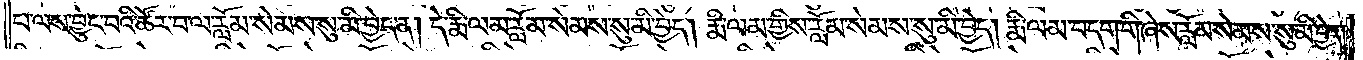པ་ལས་བྱུང་བའི་ཚོར་བ་ལ་རློམ་སེམས་སུ་མི་བྱེད་ན། དེ་རྨི་ལམ་རློམ་སེམས་སུ་མི་བྱེད། རྨི་ལམ་གྱིས་རློམ་སེམས་སུ་མི་བྱེད། རྨི་ལམ་བདག་གི་ཞེས་རློམ་སེམས་སུ་མི་བྱེད།
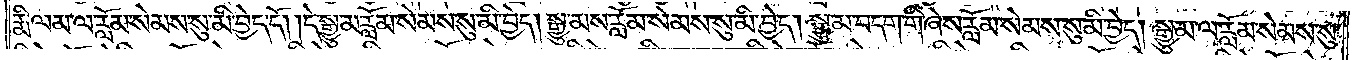རྨི་ལམ་ལ་རློམ་སེམས་སུ་མི་བྱེད་དོ། །དེ་སྒྱུ་མ་རློམ་སེམས་སུ་མི་བྱེད། སྒྱུ་མས་རློམ་སེམས་སུ་མི་བྱེད། སྒྱུ་མ་བདག་གི་ཞེས་རློམ་སེམས་སུ་མི་བྱེད། སྒྱུ་མ་ལ་རློམ་སེམས་སུ་
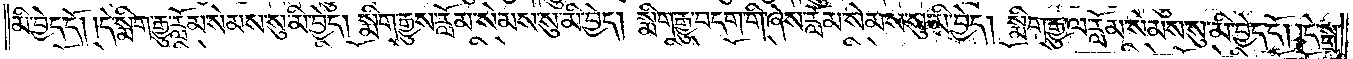མི་བྱེད་དོ། །དེ་སྨིག་རྒྱུ་རློམ་སེམས་སུ་མི་བྱེད། སྨིག་རྒྱུས་རློམ་སེམས་སུ་མི་བྱེད། སྨིག་རྒྱུ་བདག་གི་ཞེས་རློམ་སེམས་སུ་མི་བྱེད། སྨིག་རྒྱུ་ལ་རློམ་སེམས་སུ་མི་བྱེད་དོ། །དེ་སྒྲ་
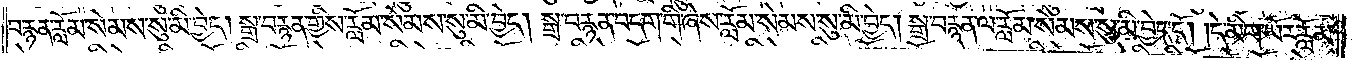བརྙན་རློམ་སེམས་སུ་མི་བྱེད། སྒྲ་བརྙན་གྱིས་རློམ་སེམས་སུ་མི་བྱེད། སྒྲ་བརྙན་བདག་གི་ཞེས་རློམ་སེམས་སུ་མི་བྱེད། སྒྲ་བརྙན་ལ་རློམ་སེམས་སུ་མི་བྱེད་དོ། །དེ་མིག་ཡོར་རློམ་
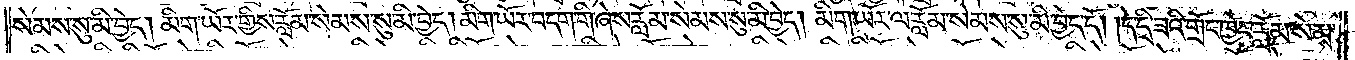སེམས་སུ་མི་བྱེད། མིག་ཡོར་གྱིས་རློམ་སེམས་སུ་མི་བྱེད། མིག་ཡོར་བདག་གི་ཞེས་རློམ་སེམས་སུ་མི་བྱེད། མིག་ཡོར་ལ་རློམ་སེམས་སུ་མི་བྱེད་དོ། །དེ་དྲི་ཟའི་གྲོང་ཁྱེར་རློམ་སེམས་
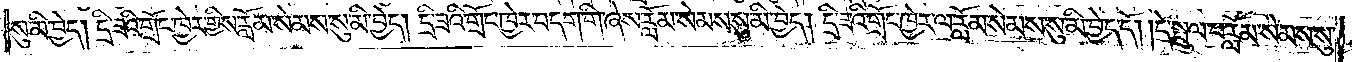སུ་མི་བྱེད། དྲི་ཟའི་གྲོང་ཁྱེར་གྱིས་རློམ་སེམས་སུ་མི་བྱེད། དྲི་ཟའི་གྲོང་ཁྱེར་བདག་གི་ཞེས་རློམ་སེམས་སུ་མི་བྱེད། དྲི་ཟའི་གྲོང་ཁྱེར་ལ་རློམ་སེམས་སུ་མི་བྱེད་དོ། །དེ་སྤྲུལ་པ་རློམ་སེམས་སུ་
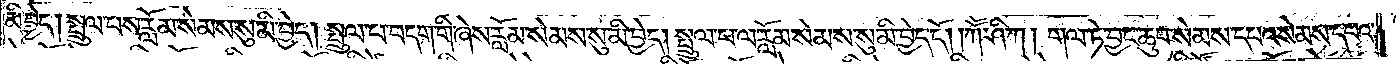མི་བྱེད། སྤྲུལ་པས་རློམ་སེམས་སུ་མི་བྱེད། སྤྲུལ་པ་བདག་གི་ཞེས་རློམ་སེམས་སུ་མི་བྱེད། སྤྲུལ་པ་ལ་རློམ་སེམས་སུ་མི་བྱེད་དོ། །ཀཽ་ཤི་ཀ། གལ་ཏེ་བྱང་ཆུབ་སེམས་དཔའ་སེམས་དཔའ་
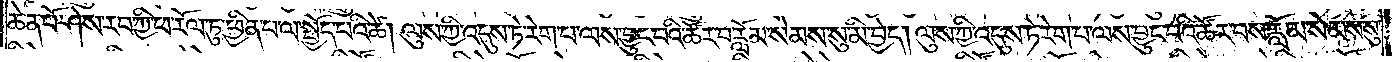ཆེན་པོ་ཤེས་རབ་ཀྱི་ཕ་རོལ་ཏུ་ཕྱིན་པ་ལ་སྤྱོད་པའི་ཚེ། ལུས་ཀྱི་འདུས་ཏེ་རེག་པ་ལས་བྱུང་བའི་ཚོར་བ་རློམ་སེམས་སུ་མི་བྱེད། ལུས་ཀྱི་འདུས་ཏེ་རེག་པ་ལས་བྱུང་བའི་ཚོར་བས་རློམ་སེམས་སུ་
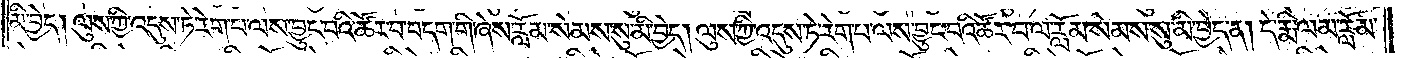མི་བྱེད། ལུས་ཀྱི་འདུས་ཏེ་རེག་པ་ལས་བྱུང་བའི་ཚོར་བ་བདག་གི་ཞེས་རློམ་སེམས་སུ་མི་བྱེད། ལུས་ཀྱི་འདུས་ཏེ་རེག་པ་ལས་བྱུང་བའི་ཚོར་བ་ལ་རློམ་སེམས་སུ་མི་བྱེད་ན། དེ་རྨི་ལམ་རློམ་
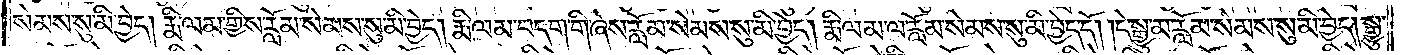སེམས་སུ་མི་བྱེད། རྨི་ལམ་གྱིས་རློམ་སེམས་སུ་མི་བྱེད། རྨི་ལམ་བདག་གི་ཞེས་རློམ་སེམས་སུ་མི་བྱེད། རྨི་ལམ་ལ་རློམ་སེམས་སུ་མི་བྱེད་དོ། །དེ་སྒྱུ་མ་རློམ་སེམས་སུ་མི་བྱེད། སྒྱུ་
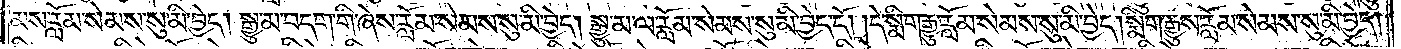མས་རློམ་སེམས་སུ་མི་བྱེད། སྒྱུ་མ་བདག་གི་ཞེས་རློམ་སེམས་སུ་མི་བྱེད། སྒྱུ་མ་ལ་རློམ་སེམས་སུ་མི་བྱེད་དོ། །དེ་སྨིག་རྒྱུ་རློམ་སེམས་སུ་མི་བྱེད། སྨིག་རྒྱུས་རློམ་སེམས་སུ་མི་བྱེད།
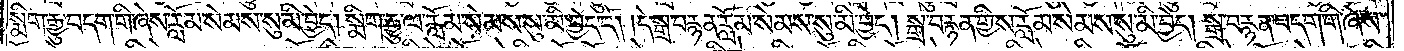སྨིག་རྒྱུ་བདག་གི་ཞེས་རློམ་སེམས་སུ་མི་བྱེད། སྨིག་རྒྱུ་ལ་རློམ་སེམས་སུ་མི་བྱེད་དོ། །དེ་སྒྲ་བརྙན་རློམ་སེམས་སུ་མི་བྱེད། སྒྲ་བརྙན་གྱིས་རློམ་སེམས་སུ་མི་བྱེད། སྒྲ་བརྙན་བདག་གི་ཞེས་
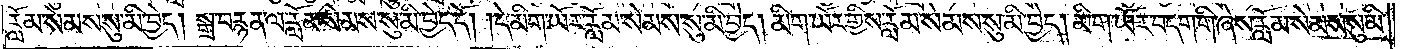རློམ་སེམས་སུ་མི་བྱེད། སྒྲ་བརྙན་ལ་རློམ་སེམས་སུ་མི་བྱེད་དོ། །དེ་མིག་ཡོར་རློམ་སེམས་སུ་མི་བྱེད། མིག་ཡོར་གྱིས་རློམ་སེམས་སུ་མི་བྱེད། མིག་ཡོར་བདག་གི་ཞེས་རློམ་སེམས་སུ་མི་
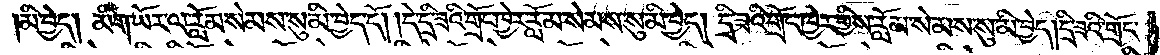མི་བྱེད། མིག་ཡོར་ལ་རློམ་སེམས་སུ་མི་བྱེད་དོ། །དེ་དྲི་ཟའི་གྲོང་ཁྱེར་རློམ་སེམས་སུ་མི་བྱེད། དྲི་ཟའི་གྲོང་ཁྱེར་གྱིས་རློམ་སེམས་སུ་མི་བྱེད། དྲི་ཟའི་གྲོང་
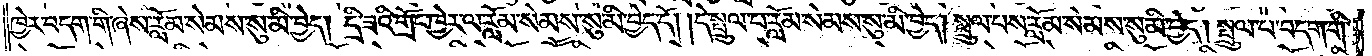ཁྱེར་བདག་གི་ཞེས་རློམ་སེམས་སུ་མི་བྱེད། དྲི་ཟའི་གྲོང་ཁྱེར་ལ་རློམ་སེམས་སུ་མི་བྱེད་དོ། །དེ་སྤྲུལ་པ་རློམ་སེམས་སུ་མི་བྱེད། སྤྲུལ་པས་རློམ་སེམས་སུ་མི་བྱེད། སྤྲུལ་པ་བདག་གི་
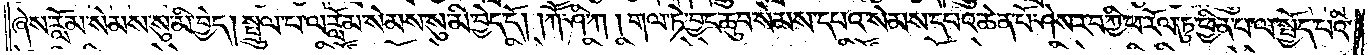ཞེས་རློམ་སེམས་སུ་མི་བྱེད། སྤྲུལ་པ་ལ་རློམ་སེམས་སུ་མི་བྱེད་དོ། །ཀཽ་ཤི་ཀ། གལ་ཏེ་བྱང་ཆུབ་སེམས་དཔའ་སེམས་དཔའ་ཆེན་པོ་ཤེས་རབ་ཀྱི་ཕ་རོལ་ཏུ་ཕྱིན་པ་ལ་སྤྱོད་པའི་
